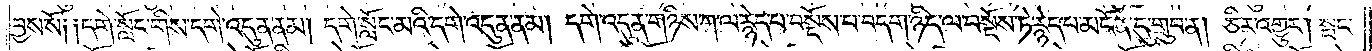བྱས་སོ༑ ༑དགེ་སློང་གིས་དགེ་འདུན་ནམ། དགེ་སློང་མའི་དགེ་འདུན་ནམ། དགེ་འདུན་གཉིས་ཀ་ལ་རྙེད་པ་བསྔོས་པ་བདག་ཉིད་ལ་བསྔོས་ཏེ་རྙེད་པ་མངོན་དུ་གྲུབ་ན། ཅིར་འགྱུར། སྤང་
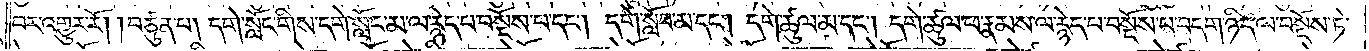བར་འགྱུར་རོ། །བཙུན་པ། དགེ་སློང་གིས་དགེ་སློང་མ་ལ་རྙེད་པ་བསྔོས་པ་དང༌། དགེ་སློབ་མ་དང༌། དགེ་ཚུལ་མ་དང༌། དགེ་ཚུལ་ཕ་རྣམས་ལ་རྙེད་པ་བསྔོས་པ་བདག་ཉིད་ལ་བསྔོས་ཏེ་
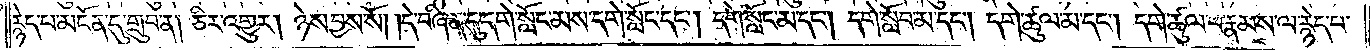རྙེད་པ་མངོན་དུ་གྲུབ་ན། ཅིར་འགྱུར། ཉེས་བྱས་སོ། །དེ་བཞིན་དུ་དགེ་སློང་མས་དགེ་སློང་དང༌། དགེ་སློང་མ་དང༌། དགེ་སློབ་མ་དང༌། དགེ་ཚུལ་མ་དང༌། དགེ་ཚུལ་ཕ་རྣམས་ལ་རྙེད་པ་
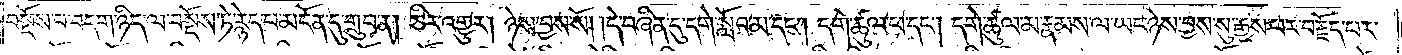བསྔོས་པ་བདག་ཉིད་ལ་བསྔོས་ཏེ་རྙེད་པ་མངོན་དུ་གྲུབ་ན། ཅིར་འགྱུར། ཉེས་བྱས་སོ། །དེ་བཞིན་དུ་དགེ་སློབ་མ་དང༌། དགེ་ཚུལ་ཕ་དང༌། དགེ་ཚུལ་མ་རྣམས་ལ་ཡང་ཉེས་བྱས་སུ་རྒྱས་པར་བརྗོད་པར་
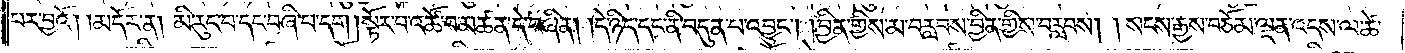པར་བྱའོ།    །མདོར་ན། མི་རུང་བ་དང་བཞི་པ་དག །སྟོར་བ་འཚོ་བ་མཚན་དེ་བཞིན། །དེ་ཉིད་དང་ནི་བདུན་པ་འབྱུང༌། །བྱིན་གྱིས་མ་བརླབས་བྱིན་གྱིས་བརླབས། །སངས་རྒྱས་བཅོམ་ལྡན་འདས་ལ་ཚེ་
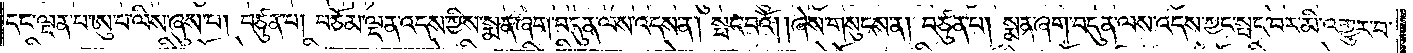དང་ལྡན་པ་ཨུ་པ་ལིས་ཞུས་པ། བཙུན་པ། བཅོམ་ལྡན་འདས་ཀྱིས་སྨན་ཞག་བདུན་ལས་འདས་ན། སྤང་བའོ། །ཞེས་གསུངས་ན། བཙུན་པ། སྨན་ཞག་བདུན་ལས་འདས་ཀྱང་སྤང་བར་མི་འགྱུར་བ་
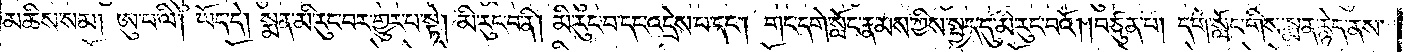མཆིས་སམ། ཨུ་པ་ལི། ཡོད་དེ། སྨན་མི་རུང་བར་གྱུར་པ་སྟེ། མི་རུང་བ་ནི། མི་རུང་བ་དང་འདྲེས་པ་དང༌། གང་དགེ་སློང་རྣམས་ཀྱིས་སྤྱད་དུ་མི་རུང་བའོ། །བཙུན་པ། དགེ་སློང་གིས་སྨན་རྙེད་ནས་
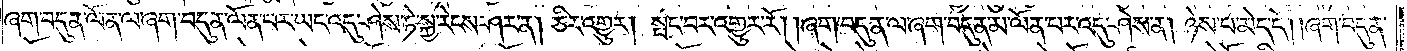ཞག་བདུན་ལོན་ལ་ཞག་བདུན་ལོན་པར་ཡང་འདུ་ཤེས་ཏེ་སྐྱ་རེངས་ཤར་ན། ཅིར་འགྱུར། སྤང་བར་འགྱུར་རོ། །ཞག་བདུན་ལ་ཞག་བདུན་མ་ལོན་པར་འདུ་ཤེས་ན། ཉེས་པ་མེད་དོ། །ཞག་བདུན་
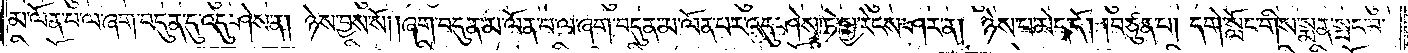མ་ལོན་པ་ལ་ཞག་བདུན་དུ་འདུ་ཤེས་ན། ཉེས་བྱས་སོ། །ཞག་བདུན་མ་ལོན་པ་ལ་ཞག་བདུན་མ་ལོན་པར་འདུ་ཤེས་ཏེ་སྐྱ་རེངས་ཤར་ན། ཉེས་པ་མེད་དོ། །བཙུན་པ། དགེ་སློང་གིས་སྨན་སྤང་བ་
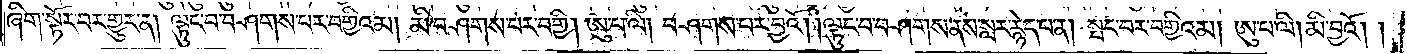ཞིག་སྟོར་བར་གྱུར་ན། ལྟུང་བ་བཤགས་པར་བགྱིའམ། མི་བཤགས་པར་བགྱི། ཨུ་པ་ལི། བཤགས་པར་བྱའོ། །ལྟུང་བ་བཤགས་ནས་སླར་རྙེད་པ་ན། སྤང་བར་བགྱིའམ། ཨུ་པ་ལི། མི་བྱའོ། །
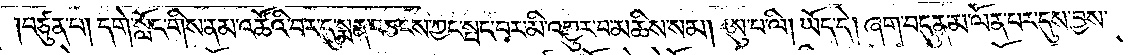།བཙུན་པ། དགེ་སློང་གིས་ནམ་འཚོའི་བར་དུ་སྨན་བཅངས་ཀྱང་སྤང་བར་མི་འགྱུར་བ་མཆིས་སམ། ཨུ་པ་ལི། ཡོད་དེ། ཞག་བདུན་མ་ལོན་པར་དུས་བྱས་
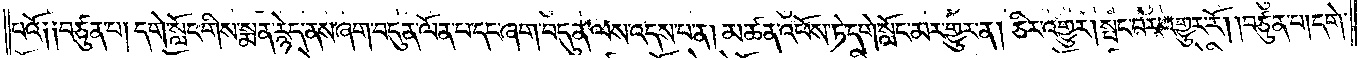པའོ༑ ༑བཙུན་པ། དགེ་སློང་གིས་སྨན་རྙེད་ནས་ཞག་བདུན་ལོན་པ་དང་ཞག་བདུན་ལས་འདས་པ་ན། མཚན་འཕོས་ཏེ་དགེ་སློང་མར་གྱུར་ན། ཅིར་འགྱུར། སྤང་བར་འགྱུར་རོ། །བཙུན་པ། དགེ་
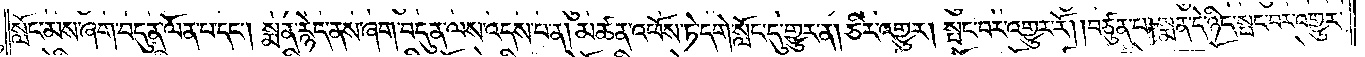སློང་མས་ཞག་བདུན་ལོན་པ་དང༌། སྨན་རྙེད་ནས་ཞག་བདུན་ལས་འདས་པ་ན། མཚན་འཕོས་ཏེ་དགེ་སློང་དུ་གྱུར་ན། ཅིར་འགྱུར། སྤང་བར་འགྱུར་རོ། །བཙུན་པ། སྨན་དེ་ཉིད་སྤང་བར་འགྱུར་
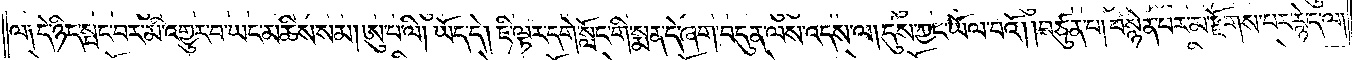ལ༑ དེ་ཉིད་སྤང་བར་མི་འགྱུར་བ་ཡང་མཆིས་སམ། ཨུ་པ་ལི། ཡོད་དེ། ཇི་ལྟར་དགེ་སློང་གི་སྨན་དེ་ཞག་བདུན་ལས་འདས་ལ། དུས་ཀྱང་ཡོལ་བའོ། །བཙུན་པ། བསྙེན་པར་མ་རྫོགས་པར་རྙེད་ལ།
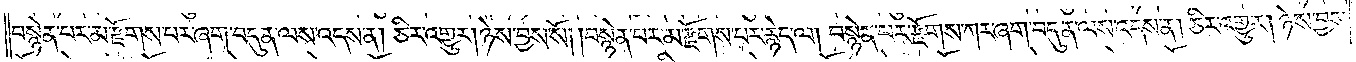བསྙེན་པར་མ་རྫོགས་པར་ཞག་བདུན་ལས་འདས་ན། ཅིར་འགྱུར། ཉེས་བྱས་སོ། །བསྙེན་པར་མ་རྫོགས་པར་རྙེད་ལ། བསྙེན་པར་རྫོགས་ཀར་ཞག་བདུན་ལས་འདས་ན། ཅིར་འགྱུར། ཉེས་བྱས་
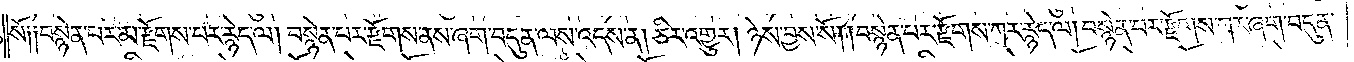སོ༑ ༑བསྙེན་པར་མ་རྫོགས་པར་རྙེད་ལ། བསྙེན་པར་རྫོགས་ནས་ཞག་བདུན་ལས་འདས་ན། ཅིར་འགྱུར། ཉེས་བྱས་སོ། །བསྙེན་པར་རྫོགས་ཀར་རྙེད་ལ། བསྙེན་པར་རྫོགས་ཀར་ཞག་བདུན་
